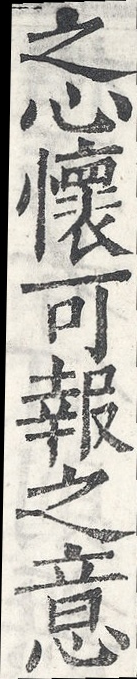之心懷可報之意
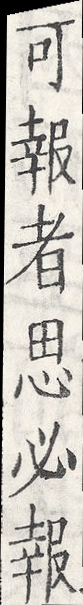可報者思必報
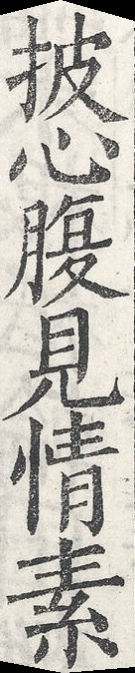披心腹見情素
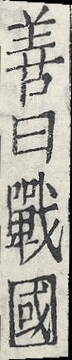善曰戰國
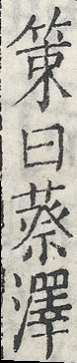策曰蔡澤
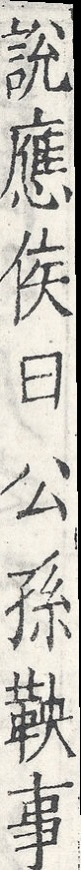說應侯曰公孫鞅事
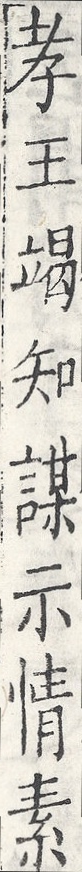孝王竭知謀示情素
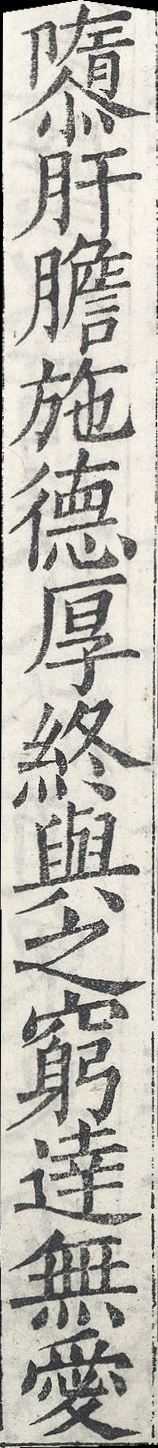隳肝膽施德厚終與之窮達無愛
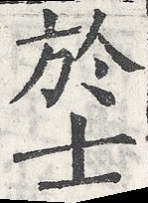於士
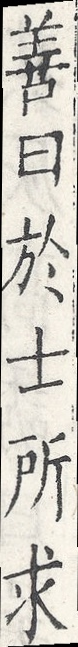善曰於士所求
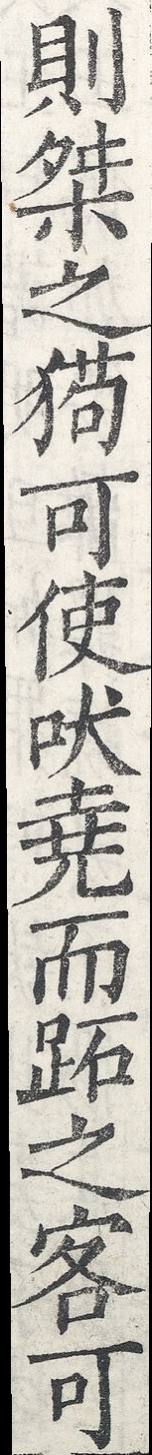則桀之㺃可使吠堯而跖之客可
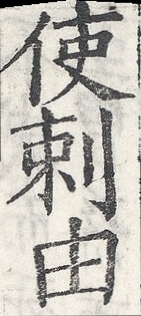使刺由
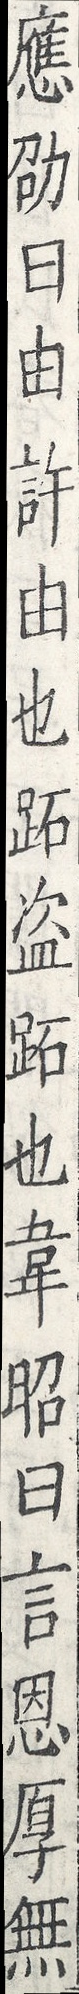應劭曰由許由也跖盜跖也韋昭曰言恩厚無
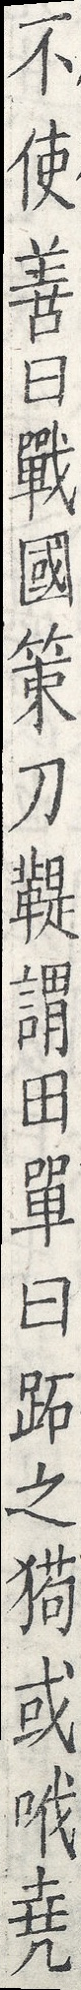不使善曰戰國策刀鞮謂田單曰跖之㺃或𠲎堯
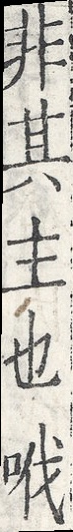非其主也𠲎
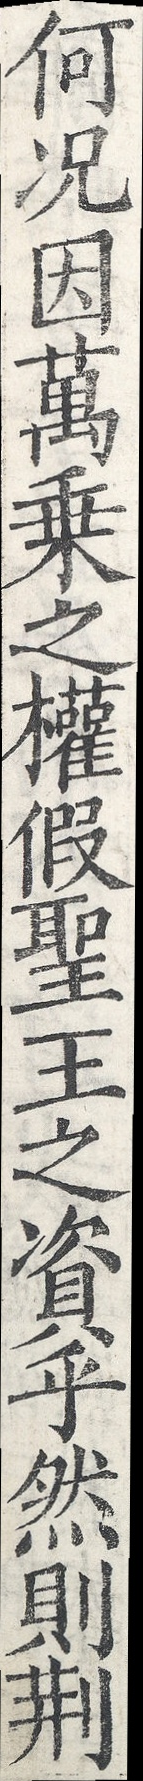何況因萬乘之權假聖王之資乎然則荊
